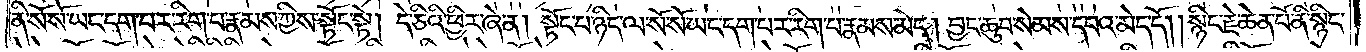ནི་སོ་སོ་ཡང་དག་པར་རིག་པ་རྣམས་ཀྱིས་སྟོང་སྟེ། དེ་ཅིའི་ཕྱིར་ཞེ་ན། སྟོང་པ་ཉིད་ལ་སོ་སོ་ཡང་དག་པར་རིག་པ་རྣམས་མེད། བྱང་ཆུབ་སེམས་དཔའ་མེད་དོ། །སྙིང་རྗེ་ཆེན་པོ་ནི་སྙིང་
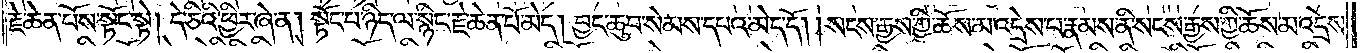རྗེ་ཆེན་པོས་སྟོང་སྟེ། དེ་ཅིའི་ཕྱིར་ཞེ་ན། སྟོང་པ་ཉིད་ལ་སྙིང་རྗེ་ཆེན་པོ་མེད། བྱང་ཆུབ་སེམས་དཔའ་མེད་དོ། །སངས་རྒྱས་ཀྱི་ཆོས་མ་འདྲེས་པ་རྣམས་ནི་སངས་རྒྱས་ཀྱི་ཆོས་མ་འདྲེས་
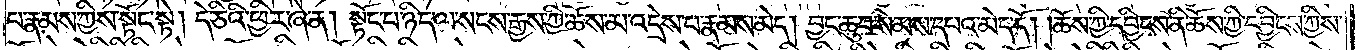པ་རྣམས་ཀྱིས་སྟོང་སྟེ། དེ་ཅིའི་ཕྱིར་ཞེ་ན། སྟོང་པ་ཉིད་ལ་སངས་རྒྱས་ཀྱི་ཆོས་མ་འདྲེས་པ་རྣམས་མེད། བྱང་ཆུབ་སེམས་དཔའ་མེད་དོ། །ཆོས་ཀྱི་དབྱིངས་ནི་ཆོས་ཀྱི་དབྱིངས་ཀྱིས་
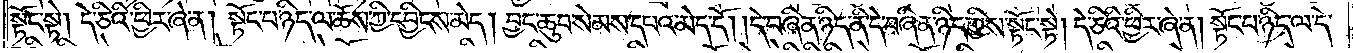སྟོང་སྟེ། དེ་ཅིའི་ཕྱིར་ཞེ་ན། སྟོང་པ་ཉིད་ལ་ཆོས་ཀྱི་དབྱིངས་མེད། བྱང་ཆུབ་སེམས་དཔའ་མེད་དོ། །དེ་བཞིན་ཉིད་ནི་དེ་བཞིན་ཉིད་ཀྱིས་སྟོང་སྟེ། དེ་ཅིའི་ཕྱིར་ཞེ་ན། སྟོང་པ་ཉིད་ལ་དེ་
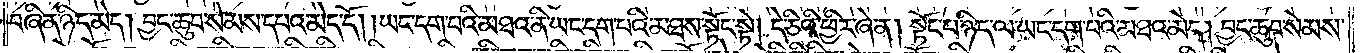བཞིན་ཉིད་མེད། བྱང་ཆུབ་སེམས་དཔའ་མེད་དོ། །ཡང་དག་པའི་མཐའ་ནི་ཡང་དག་པའི་མཐས་སྟོང་སྟེ། དེ་ཅིའི་ཕྱིར་ཞེ་ན། སྟོང་པ་ཉིད་ལ་ཡང་དག་པའི་མཐའ་མེད། བྱང་ཆུབ་སེམས་
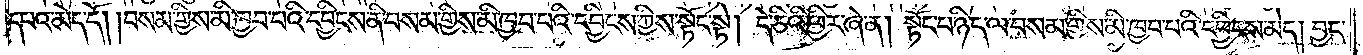དཔའ་མེད་དོ། །བསམ་གྱིས་མི་ཁྱབ་པའི་དབྱིངས་ནི་བསམ་གྱིས་མི་ཁྱབ་པའི་དབྱིངས་ཀྱིས་སྟོང་སྟེ། དེ་ཅིའི་ཕྱིར་ཞེ་ན། སྟོང་པ་ཉིད་ལ་བསམ་གྱིས་མི་ཁྱབ་པའི་དབྱིངས་མེད། བྱང་
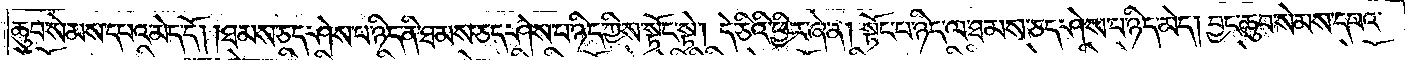ཆུབ་སེམས་དཔའ་མེད་དོ། །ཐམས་ཅད་ཤེས་པ་ཉིད་ནི་ཐམས་ཅད་ཤེས་པ་ཉིད་ཀྱིས་སྟོང་སྟེ། དེ་ཅིའི་ཕྱིར་ཞེ་ན། སྟོང་པ་ཉིད་ལ་ཐམས་ཅད་ཤེས་པ་ཉིད་མེད། བྱང་ཆུབ་སེམས་དཔའ་
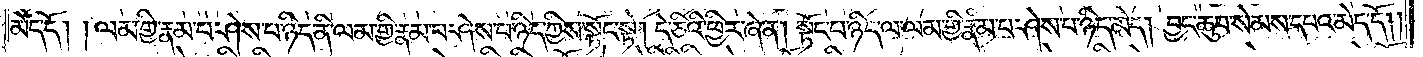མེད་དོ། །ལམ་གྱི་རྣམ་པ་ཤེས་པ་ཉིད་ནི་ལམ་གྱི་རྣམ་པ་ཤེས་པ་ཉིད་ཀྱིས་སྟོང་སྟེ། དེ་ཅིའི་ཕྱིར་ཞེ་ན། སྟོང་པ་ཉིད་ལ་ལམ་གྱི་རྣམ་པ་ཤེས་པ་ཉིད་མེད། བྱང་ཆུབ་སེམས་དཔའ་མེད་དོ། །
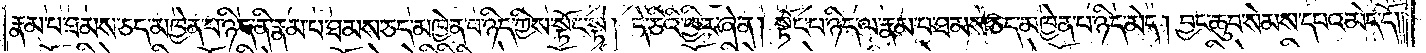རྣམ་པ་ཐམས་ཅད་མཁྱེན་པ་ཉིད་ནི་རྣམ་པ་ཐམས་ཅད་མཁྱེན་པ་ཉིད་ཀྱིས་སྟོང་སྟེ། དེ་ཅིའི་ཕྱིར་ཞེ་ན། སྟོང་པ་ཉིད་ལ་རྣམ་པ་ཐམས་ཅད་མཁྱེན་པ་ཉིད་མེད། བྱང་ཆུབ་སེམས་དཔའ་མེད་དོ། །
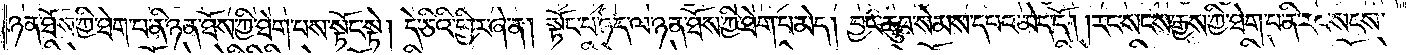ཉན་ཐོས་ཀྱི་ཐེག་པ་ནི་ཉན་ཐོས་ཀྱི་ཐེག་པས་སྟོང་སྟེ། དེ་ཅིའི་ཕྱིར་ཞེ་ན། སྟོང་པ་ཉིད་ལ་ཉན་ཐོས་ཀྱི་ཐེག་པ་མེད། བྱང་ཆུབ་སེམས་དཔའ་མེད་དོ། །རང་སངས་རྒྱས་ཀྱི་ཐེག་པ་ནི་རང་སངས་
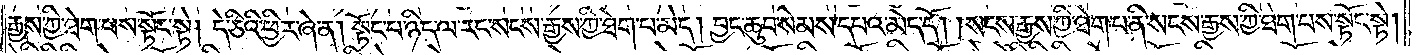རྒྱས་ཀྱི་ཐེག་པས་སྟོང་སྟེ། དེ་ཅིའི་ཕྱིར་ཞེ་ན། སྟོང་པ་ཉིད་ལ་རང་སངས་རྒྱས་ཀྱི་ཐེག་པ་མེད། བྱང་ཆུབ་སེམས་དཔའ་མེད་དོ། །སངས་རྒྱས་ཀྱི་ཐེག་པ་ནི་སངས་རྒྱས་ཀྱི་ཐེག་པས་སྟོང་སྟེ།
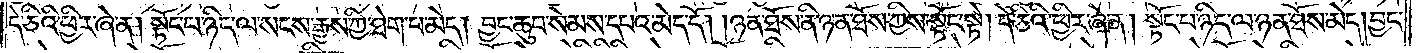དེ་ཅིའི་ཕྱིར་ཞེ་ན། སྟོང་པ་ཉིད་ལ་སངས་རྒྱས་ཀྱི་ཐེག་པ་མེད། བྱང་ཆུབ་སེམས་དཔའ་མེད་དོ། །ཉན་ཐོས་ནི་ཉན་ཐོས་ཀྱིས་སྟོང་སྟེ། དེ་ཅིའི་ཕྱིར་ཞེ་ན། སྟོང་པ་ཉིད་ལ་ཉན་ཐོས་མེད། བྱང་
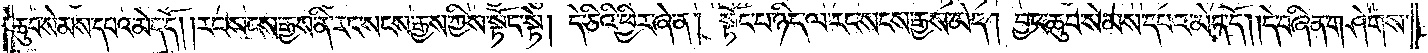ཆུབ་སེམས་དཔའ་མེད་དོ། །རང་སངས་རྒྱས་ནི་རང་སངས་རྒྱས་ཀྱིས་སྟོང་སྟེ། དེ་ཅིའི་ཕྱིར་ཞེ་ན། སྟོང་པ་ཉིད་ལ་རང་སངས་རྒྱས་མེད། བྱང་ཆུབ་སེམས་དཔའ་མེད་དོ། །དེ་བཞིན་གཤེགས་
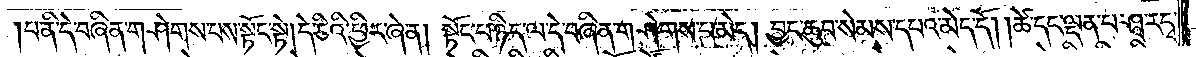པ་ནི་དེ་བཞིན་གཤེགས་པས་སྟོང་སྟེ། དེ་ཅིའི་ཕྱིར་ཞེ་ན། སྟོང་པ་ཉིད་ལ་དེ་བཞིན་གཤེགས་པ་མེད། བྱང་ཆུབ་སེམས་དཔའ་མེད་དོ། །ཚེ་དང་ལྡན་པ་ཤཱ་ར་དྭ་
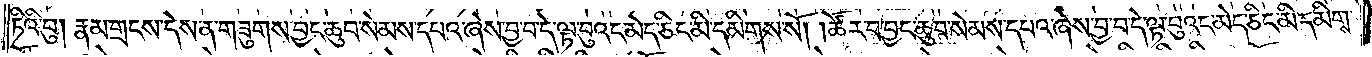ཏིའི་བུ། རྣམ་གྲངས་དེས་ན་གཟུགས་བྱང་ཆུབ་སེམས་དཔའ་ཞེས་བྱ་བ་དེ་ལྟ་བུའང་མེད་ཅིང་མི་དམིགས་སོ། །ཚོར་བ་བྱང་ཆུབ་སེམས་དཔའ་ཞེས་བྱ་བ་དེ་ལྟ་བུའང་མེད་ཅིང་མི་དམིགས་
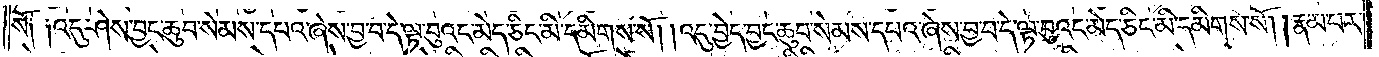སོ། །འདུ་ཤེས་བྱང་ཆུབ་སེམས་དཔའ་ཞེས་བྱ་བ་དེ་ལྟ་བུའང་མེད་ཅིང་མི་དམིགས་སོ། །འདུ་བྱེད་བྱང་ཆུབ་སེམས་དཔའ་ཞེས་བྱ་བ་དེ་ལྟ་བུའང་མེད་ཅིང་མི་དམིགས་སོ། །རྣམ་པར་
